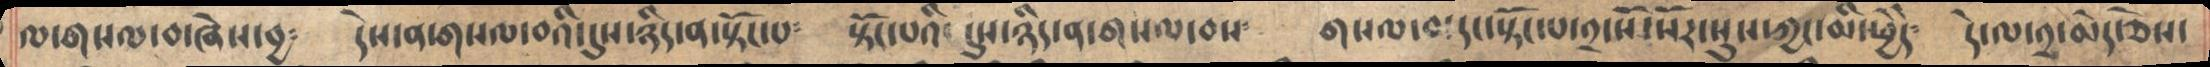ལ་གསལ་བ་ཞེས་བྱ༴   དེས་ན་གསལ་བའི་དུས་ཉིད་ན་སྟོང་པ༴   སྟོང་པའི་དུས་ཉིད་ན་གསལ་བས༴     གསལ་བ་དང་སྟོང་པ་གཉིས་སོ་སོར་སུས་ཀྱང་མི་ཕྱེདེ༴   དེ་ལ་༢་མེད་ཅེས་
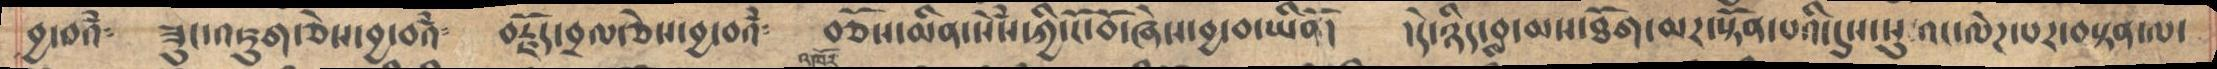བྱ་བའཾ༴ ཟུང་འཇུག་ཅེས་བྱ་བའཾ༴  བརྗོད་བྲལ་ཅེས་བྱ་བའཾ༴   བཅོས་མིན་སེསཾ་ཀྱི་ངོ་བོ་ཞེས་བྱ་བ་ཡིནོ།  །དེ་ཉིད་བླ་མས་ཐོག་མར་སྟོན་པའི་དུས་སུ་འང་ལེཌ་པར་བསྟན་ལ་
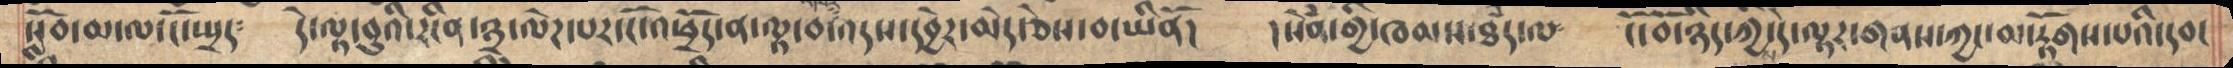སློབ་མ་ལ་ངོ་སྤྲད༴   དེ་ལྟ་བུའི་རངིན་༣་ལེཌ་པར་ངོ་འཕྲོད་ན་ལྟ་བ་འཁོར་འདས་དབྱེར་མེད་ཅེས་བ་ཡིནོ།  །སེཾན་གྱི་ཁམས་ཐཾད་ལ༴  ངོ་བོ་ཉིད་ཀྱིས་དེ་ལྟར་གནས་ཀྱང་མ་རྟོགས་པའི་དབང
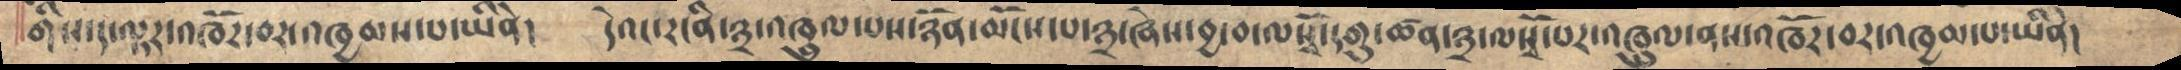གིས་ད་ལྟར་འཁོར་བར་འཁྱམས་པ་ཡིནོ།    དེའང་རངིན་༣་འཁྲུལ་པས་ཉོན་མོངས་པ་༣་ཞེས་བྱ་བ་ལསྭོ་དགུ་ཚན་༣་ལསྭོ་པར་འཁྲུལ་ནས་འཁོར་བར་འཁྱམས་པ་ཡིནོ།
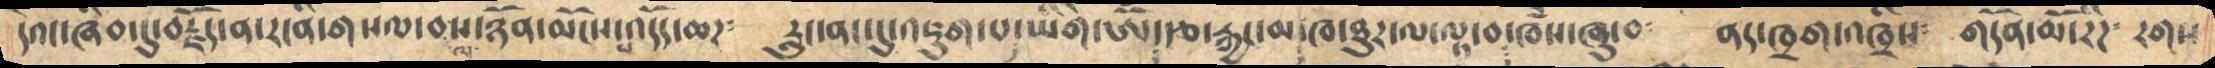དེའང་ཞིབ་དུ་བརྗོད་ན་རངིན་གསལ་བ་ལས་ཉོན་མོངས་པ་འདོད་ཆཌ༴  རླུང་ནང་དུ་འཇུག་པ་ཡིགེ་ཨོཾ་རྩ་རྐྱང་མ་ཁ་ཐུར་ལ་ལྟ་བ་ཁཾས་ཞུ་བ༴  ནད་ཁྲག་འཁྲིས༴  གདོན་མོ་རིཌ༴ རགས
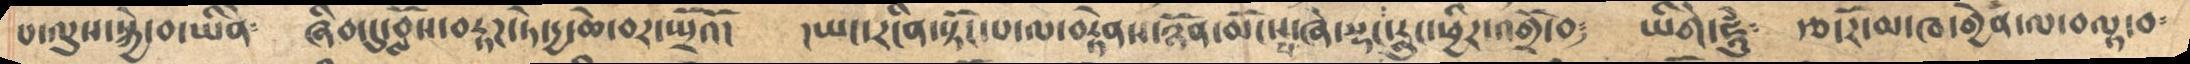པ་ལུས་སྐྱེ་བ་ཡིནེ༴  ཞིབ་དུ་བློས་བརྟཌ་ཏེ་དྱ་ཆེ་བར་སྤྲོའོ།   །ཡང་རངིན་སྟོང་པ་ལ་བརྟེནས་ཉོན་མོངས་པ་ཞེ་སྡང་རླུང་ཕྱིར་འགྲོ་བ༴  ཡིགེ་ཧཱུཾ༴  རྩ་རོ་མ་ཁ་གྱེན་ལ་བལྟ་བ༴
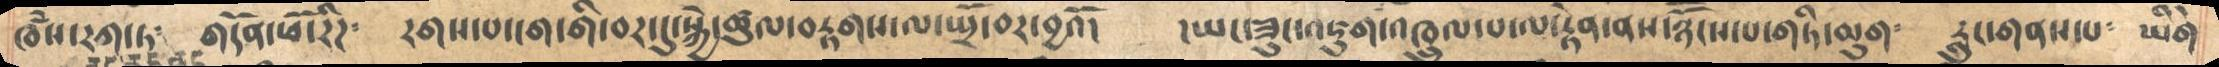ཁཾས་རཀ་ཏ༴  གདོན་ཕོ་རིཌ༴  རགས་པ་ངག་གི་བར་དུ་སྐྱེ་ཚུལ་བརྟགས་ལ་སྤྲོ་བར་བྱའོ།  །ཡང་ཟུང་འཇུག་འཁྲུལ་པ་ལ་རྟེན་ནས་ཉཽངས་པ་གཏི་མུག༴  རླུང་གནས་པ༴  ཡིགེ
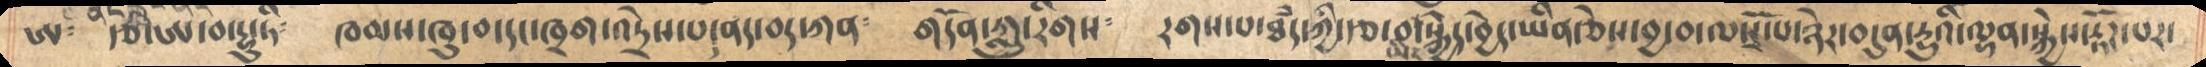ཨ༴   རྩེ་ཨ་བ་དྷུ་ཏི༴  ཁམས་ཁུ་བ་དང་ཁྲག་འདྲེས་པ་ནད་བད་ཀན༴  གདོན་ཀླུ་རིགས༴   རགས་པ་ཐཾད་ཀྱི་རྩ་བ་ཡིད་སྐྱེད་བྱེད་ཡིན་ཅེས་བྱ་བ་ལསྭོ་པ་ཉེར་བདུན་དྱུའི་ལྷན་སྐྱེས་རྟོཌ་པར་
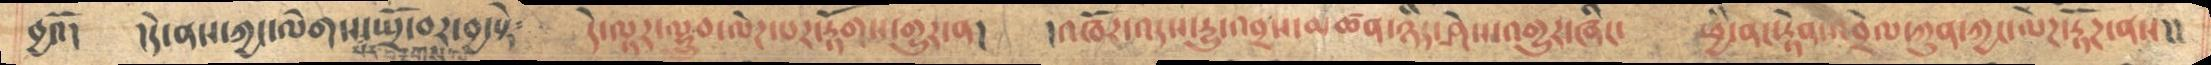བྱའོ།   །དེ་ནས་ཀྱང་ལེགས་པར་སྤྲོ་བར་བྱ་སྟེ༴  དེ་ལྟར་ལྷྲུབ་ལེཌ་པར་རྟོགས་གྱུར་ན།  །འཁོར་འདས་དྱུ་འབྲས་མཚན་ཉིད་ཤེས་འགྱུར་ཞིང་   ཕྱི་ནང་རྟེན་འབྲེལ་ཀུན་ཀྱང་ལེཌ་རྟོཌ་ནས།།
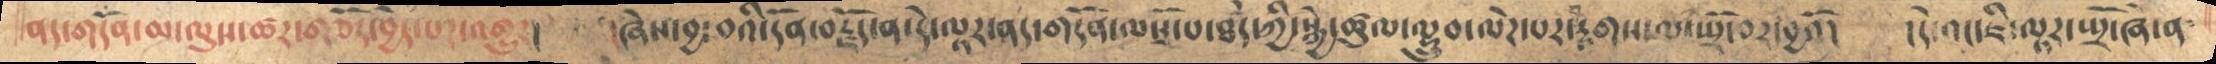ནད་གདོན་མ་ལུས་ཚར་གཅོད་བྱེད་པར་འགྱུར།  །ཞེས་བྱ་བའི་དོན་བརྗོད་ན་དེ་ལྟར་ནད་གདོན་ལསྭོ་པ་ཐཾད་ཀྱི་སྐྱེ་ཚུལ་ལྷྲུབ་ལེཌ་པར་བརྟགས་ལ་སྤྲོ་བར་བྱའོ།  །དེ་འང་ཇི་ལྟར་སྤྲོ་ཞེ་ན་
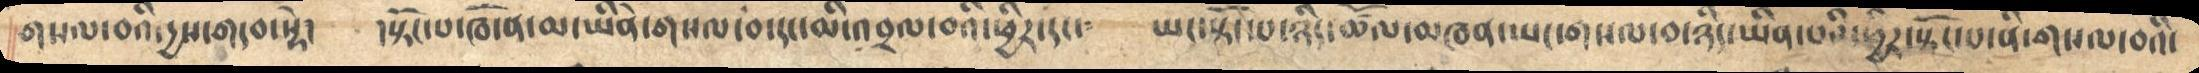གསལ་བའི་དྱས་གདབ་སྟེ།    །སྟོང་པ་ཁོ་ན་མ་ཡིནེ་གསལ་བ་དང་མི་འབྲལ་བའི་ཕྱིར་དང་༴  ཡང་སྟོང་པ་ཉིད་ཚོལ་མཁན་ཡང་གསལ་བ་ཉིད་ཡིན་པའི་ཕྱིར་སྟོང་པ་ནི་གསལ་བའི་
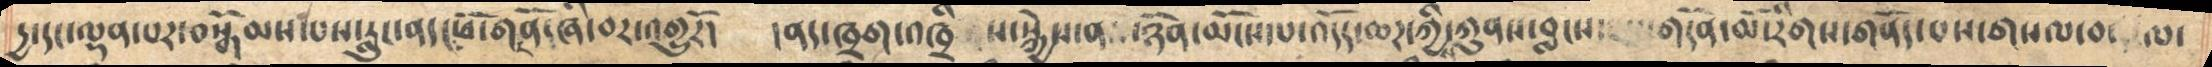དྱ་དང་ལྡན་པར་བསྒོམས་པས་རླུང་ནད་ཕོ་གདོན་ཞི་བར་འགྱུརོ།  །ནད་ཁྲག་འཁྲི ས་སྐྱེས་ན ་ཉོན་མོངས་པ་འདོད་ཆཌ་ཀྱིས་ཀུནས་བླངས་་་གདོན་མོ་རིགས་གནོད་པས་གསལ་བ་ ལ་
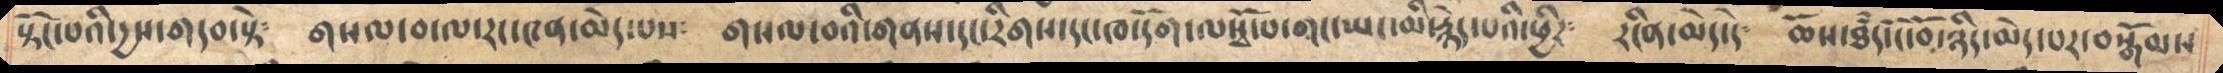སྟོང་པའི་དྱས་གདབ་སྟེ༴    གསལ་བ་ལ་རང་༤ན་མེད་པས༴    གསལ་བའི་གནས་དང་རིགས་དང་ཁ་དོག་ལསྭོ་པ་གང་ཡང་མི་རྙེད་པའི་ཕྱིར༴   རངིན་མེད་དེ༴   ཆོས་ཐཾད་ངོ་བོ་ཉིད་མེད་པར་བསྒོམས
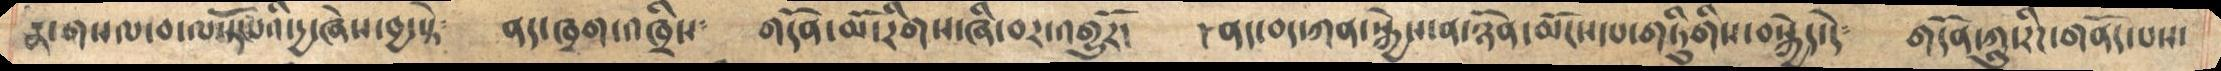རྣ་གསལ་བ་ལསྭོ་པའི་དྱ་ཞེས་བྱ་སྟེ༴   ནད་ཁྲག་འཁྲིས་༴ གདོན་མོ་རིགས་ཞི་བར་འགྱུརོ།  །ནད་བད་ཀན་སྐྱེས་ན་ཉོན་མོངས་པ་གཏིུགིས་བསྐྱེད་དེ༴  གདོན་ཀླུ་རིཌ་གནོད་པས་
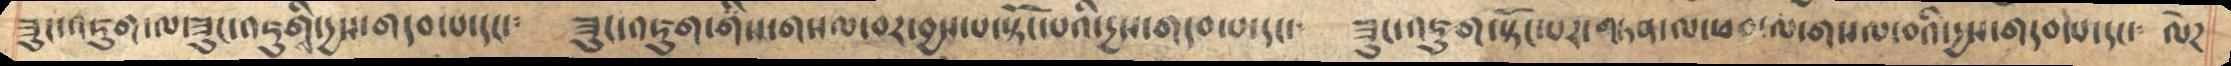ཟུང་འཇུག་ལ་ཟུང་འཇུགིས་དྱས་གདབ་པ་དང་༴  ཟུང་འཇུག་གིས་གསལ་བར་བྱས་པ་སྟོང་པའི་དྱས་གདབ་པ་དང་༴  ཟུང་འཇུག་སྟོང་པར་གཏན་ལ་ཕབ་ལ་གསལ་བའི་དྱས་གདབ་པ་དང་༴ ལེཌ
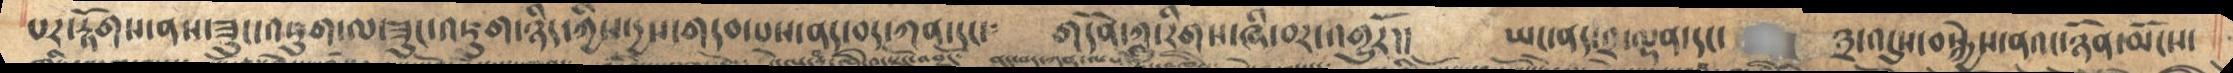པར་རྟོགས་ནས་ཟུང་འཇུག་ལ་ཟུང་འཇུག་ཉིད་ཀྱིས་དྱས་གདབ་པས་ནད་བད་ཀན་དང་༴  གདོན་ཀླུ་རིགས་ཞི་བར་འགྱུརོ།།   ཡང་ནད་༢་ལྡན་དང་  ༣་འདུས་བསྐྱེས་ནའང་ཉོན་མོངས་
